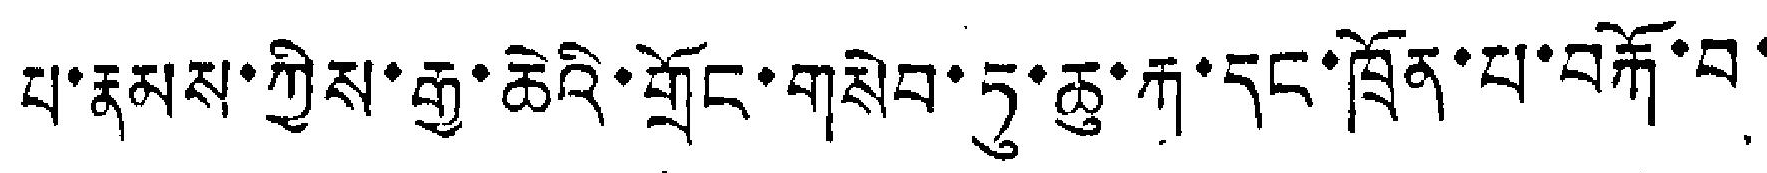པ་རྣམས་ཀྱིས་རྒྱ་ཆེའི་གྲོང་གསེབ་ཏུ་ཆུ་རྐ་དང་ཁྲོན་པ་བརྐོ་བ་
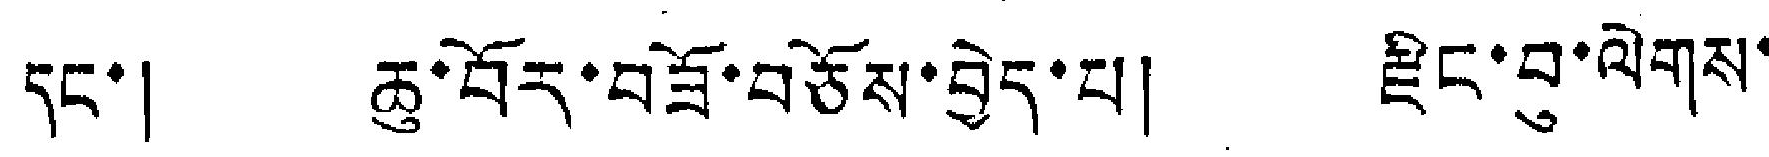དང་། ཆུ་བོར་བཟོ་བཅོས་བྱེད་པ། རྫིང་བུ་ལེགས་
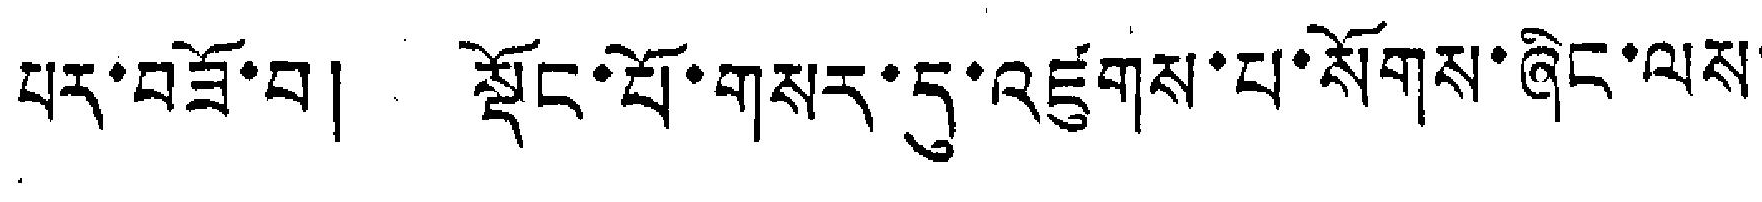པར་བཟོ་བ། སྡོང་པོ་གསར་དུ་འཛུགས་པ་སོགས་ཞིང་ལས་
